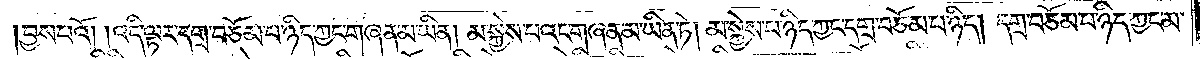བྱས་པའོ། །འདི་ལྟར་དགྲ་བཅོམ་པ་ཉིད་ཀྱང་གཞན་མ་ཡིན། མ་སྐྱེས་པའང་གཞན་མ་ཡིན་ཏེ། མ་སྐྱེས་པ་ཉིད་ཀྱང་དགྲ་བཅོམ་པ་ཉིད། དགྲ་བཅོམ་པ་ཉིད་ཀྱང་མ་
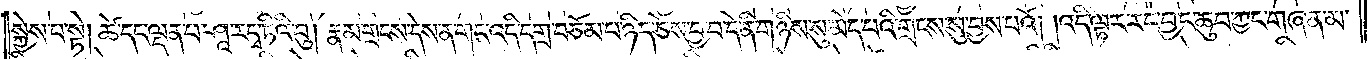སྐྱེས་པ་སྟེ། ཚེ་དང་ལྡན་པ་ཤཱ་ར་དྭ་ཏིའི་བུ། རྣམ་གྲངས་དེས་ན་གང་འདི་དགྲ་བཅོམ་པ་ཉིད་ཅེས་བྱ་བ་དེ་ནི་གཉིས་སུ་མེད་པའི་གྲངས་སུ་བྱས་པའོ། །འདི་ལྟར་རང་བྱང་ཆུབ་ཀྱང་གཞན་མ་
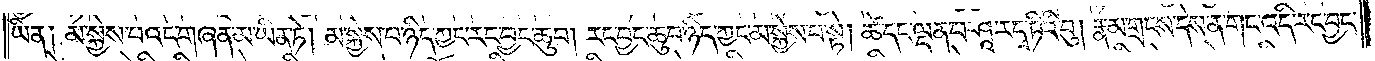ཡིན༏ མ་སྐྱེས་པའང་གཞན་མ་ཡིན་ཏེ། མ་སྐྱེས་པ་ཉིད་ཀྱང་རང་བྱང་ཆུབ། རང་བྱང་ཆུབ་ཉིད་ཀྱང་མ་སྐྱེས་པ་སྟེ། ཚེ་དང་ལྡན་པ་ཤཱ་ར་དྭ་ཏིའི་བུ། རྣམ་གྲངས་དེས་ན་གང་འདི་རང་བྱང་
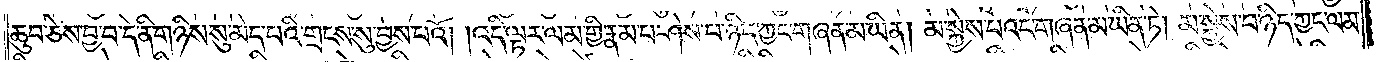ཆུབ་ཅེས་བྱ་བ་དེ་ནི་གཉིས་སུ་མེད་པའི་གྲངས་སུ་བྱས་པའོ། །འདི་ལྟར་ལམ་གྱི་རྣམ་པ་ཤེས་པ་ཉིད་ཀྱང་གཞན་མ་ཡིན། མ་སྐྱེས་པའང་གཞན་མ་ཡིན་ཏེ། མ་སྐྱེས་པ་ཉིད་ཀྱང་ལམ་
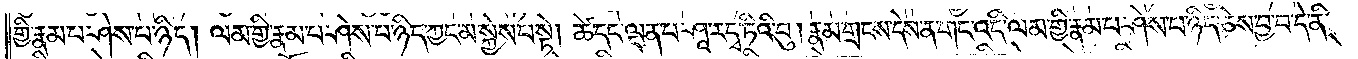གྱི་རྣམ་པ་ཤེས་པ་ཉིད། ལམ་གྱི་རྣམ་པ་ཤེས་པ་ཉིད་ཀྱང་མ་སྐྱེས་པ་སྟེ། ཚེ་དང་ལྡན་པ་ཤཱ་ར་དྭ་ཏིའི་བུ། རྣམ་གྲངས་དེས་ན་གང་འདི་ལམ་གྱི་རྣམ་པ་ཤེས་པ་ཉིད་ཅེས་བྱ་བ་དེ་ནི་
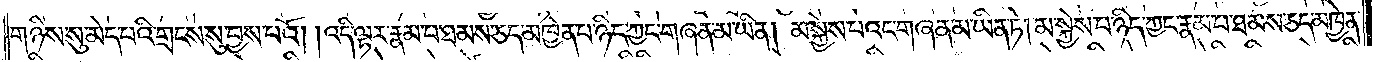གཉིས་སུ་མེད་པའི་གྲངས་སུ་བྱས་པའོ། །འདི་ལྟར་རྣམ་པ་ཐམས་ཅད་མཁྱེན་པ་ཉིད་ཀྱང་གཞན་མ་ཡིན། མ་སྐྱེས་པའང་གཞན་མ་ཡིན་ཏེ། མ་སྐྱེས་པ་ཉིད་ཀྱང་རྣམ་པ་ཐམས་ཅད་མཁྱེན་
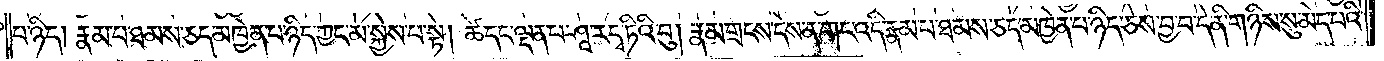པ་ཉིད། རྣམ་པ་ཐམས་ཅད་མཁྱེན་པ་ཉིད་ཀྱང་མ་སྐྱེས་པ་སྟེ། ཚེ་དང་ལྡན་པ་ཤཱ་ར་དྭ་ཏིའི་བུ། རྣམ་གྲངས་དེས་ན་གང་འདི་རྣམ་པ་ཐམས་ཅད་མཁྱེན་པ་ཉིད་ཅེས་བྱ་བ་དེ་ནི་གཉིས་སུ་མེད་པའི་
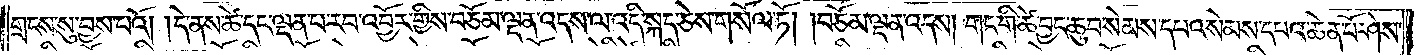གྲངས་སུ་བྱས་པའོ། །དེ་ནས་ཚེ་དང་ལྡན་པ་རབ་འབྱོར་གྱིས་བཅོམ་ལྡན་འདས་ལ་འདི་སྐད་ཅེས་གསོལ་ཏོ། །བཅོམ་ལྡན་འདས། གང་གི་ཚེ་བྱང་ཆུབ་སེམས་དཔའ་སེམས་དཔའ་ཆེན་པོ་ཤེས་
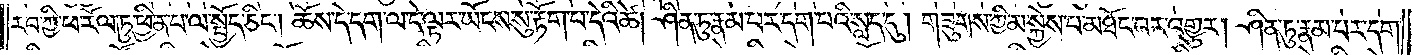རབ་ཀྱི་ཕ་རོལ་ཏུ་ཕྱིན་པ་ལ་སྤྱོད་ཅིང༌། ཆོས་དེ་དག་ལ་དེ་ལྟར་ཡོངས་སུ་རྟོག་པ་དེའི་ཚེ། ཤིན་ཏུ་རྣམ་པར་དག་པའི་སླད་དུ། གཟུགས་ཀྱི་མ་སྐྱེས་པ་མཐོང་བར་འགྱུར། ཤིན་ཏུ་རྣམ་པར་དག་
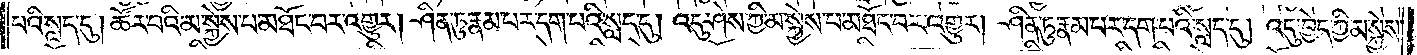པའི་སླད་དུ། ཚོར་བའི་མ་སྐྱེས་པ་མཐོང་བར་འགྱུར། ཤིན་ཏུ་རྣམ་པར་དག་པའི་སླད་དུ། འདུ་ཤེས་ཀྱི་མ་སྐྱེས་པ་མཐོང་བར་འགྱུར། ཤིན་ཏུ་རྣམ་པར་དག་པའི་སླད་དུ། འདུ་བྱེད་ཀྱི་མ་སྐྱེས་
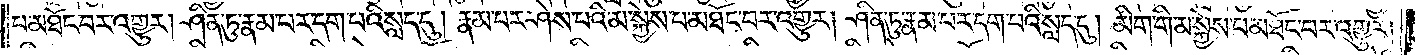པ་མཐོང་བར་འགྱུར། ཤིན་ཏུ་རྣམ་པར་དག་པའི་སླད་དུ། རྣམ་པར་ཤེས་པའི་མ་སྐྱེས་པ་མཐོང་བར་འགྱུར། ཤིན་ཏུ་རྣམ་པར་དག་པའི་སླད་དུ། མིག་གི་མ་སྐྱེས་པ་མཐོང་བར་འགྱུར།
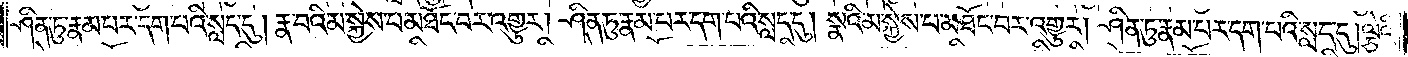ཤིན་ཏུ་རྣམ་པར་དག་པའི་སླད་དུ་རྣ་བའི་མ་སྐྱེས་པ་མཐོང་བར་འགྱུར། ཤིན་ཏུ་རྣམ་པར་དག་པའི་སླད་དུ། སྣའི་མ་སྐྱེས་པ་མཐོང་བར་འགྱུར། ཤིན་ཏུ་རྣམ་པར་དག་པའི་སླད་དུ། ལྕེའི་
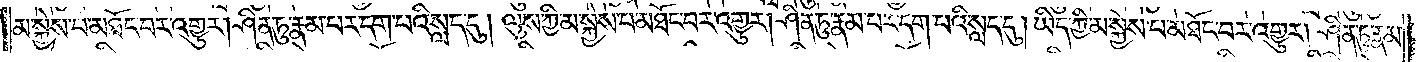མ་སྐྱེས་པ་མཐོང་བར་འགྱུར། ཤིན་ཏུ་རྣམ་པར་དག་པའི་སླད་དུ། ལུས་ཀྱི་མ་སྐྱེས་པ་མཐོང་བར་འགྱུར། ཤིན་ཏུ་རྣམ་པར་དག་པའི་སླད་དུ། ཡིད་ཀྱི་མ་སྐྱེས་པ་མཐོང་བར་འགྱུར། ཤིན་ཏུ་རྣམ་
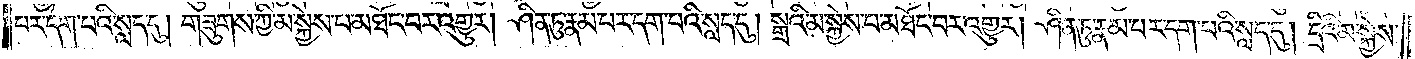པར་དག་པའི་སླད་དུ། གཟུགས་ཀྱི་མ་སྐྱེས་པ་མཐོང་བར་འགྱུར། ཤིན་ཏུ་རྣམ་པར་དག་པའི་སླད་དུ། སྒྲའི་མ་སྐྱེས་པ་མཐོང་བར་འགྱུར། ཤིན་ཏུ་རྣམ་པར་དག་པའི་སླད་དུ། དྲིའི་མ་སྐྱེས་
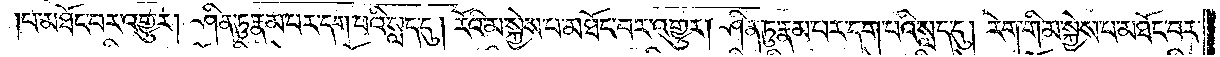པ་མཐོང་བར་འགྱུར། ཤིན་ཏུ་རྣམ་པར་དག་པའི་སླད་དུ། རོའི་མ་སྐྱེས་པ་མཐོང་བར་འགྱུར། ཤིན་ཏུ་རྣམ་པར་དག་པའི་སླད་དུ། རེག་གི་མ་སྐྱེས་པ་མཐོང་བར་
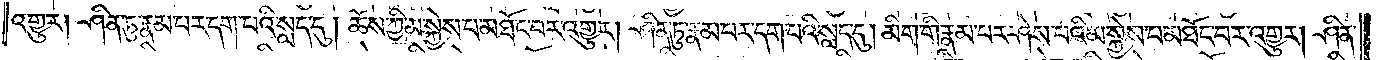འགྱུར། ཤིན་ཏུ་རྣམ་པར་དག་པའི་སླད་དུ། ཆོས་ཀྱི་མ་སྐྱེས་པ་མཐོང་བར་འགྱུར། ཤིན་ཏུ་རྣམ་པར་དག་པའི་སླད་དུ། མིག་གི་རྣམ་པར་ཤེས་པའི་མ་སྐྱེས་པ་མཐོང་བར་འགྱུར། ཤིན་
